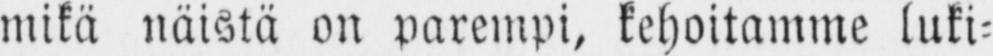mikä näistä on parempi, kehoitamme luki-
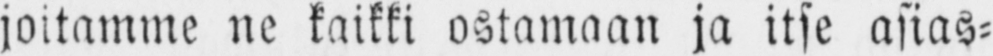joitamme ne kaikki ostamaan ja itse asias-
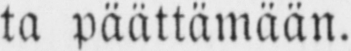ta päättämään.
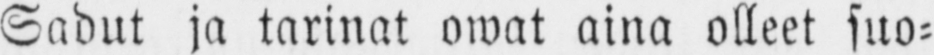Sadut ja tarinat owat aina olleet suo-
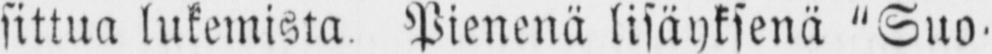sittua lukemista Pienenä lisäyksenä "Suo-
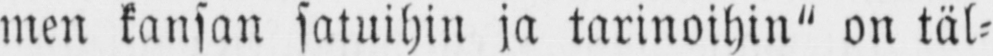men kansan satuihin ja tarinoihin" on täl-
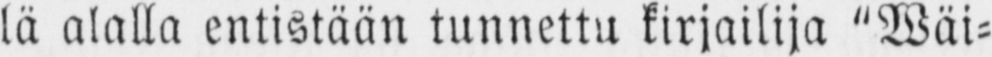lä alalla entistään tunnettu kirjailija "Wäi-
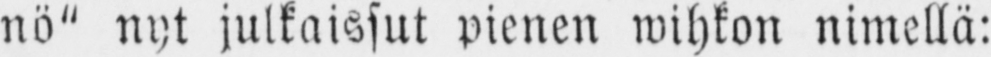nö" nyt julkaissut pienen wihkon nimellä:
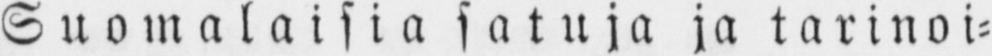Suomalaisia satuja ja tarinoi-
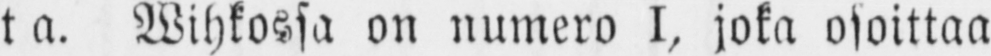ta. Wihkossa on numero I, joka osoittaa
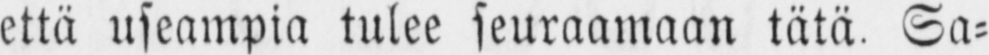että useampia tulee seuraamaan tätä. Sa-
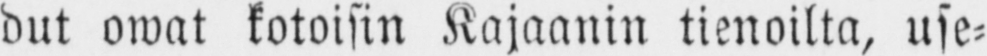dut owat kotoisin Kajaanin tienoilta, use-
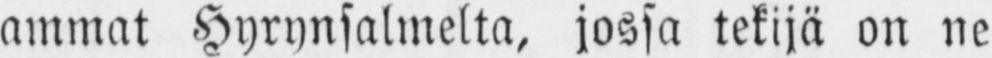ammat Hyrynsalmelta, jossa tekijä on ne
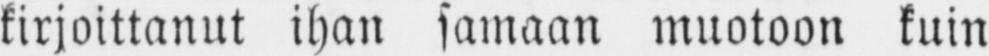kirjoittanut ihan samaan muotoon kuin
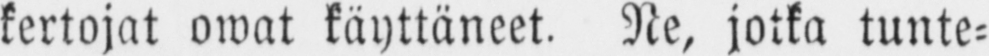kertojat owat käyttäneet. Ne, jotka tunte-
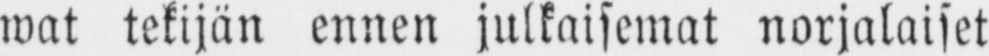wat tekijän ennen julkaisemat norjalaiset
